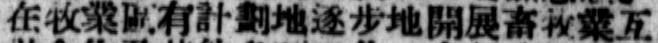在牧業區有計劃地逐步地開展畜牧業互
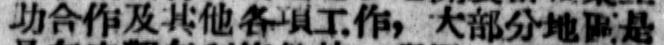助合作及其他各項工作，大部份地區是
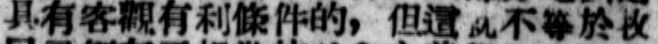具有客觀有利條件的，但這就不等於牧
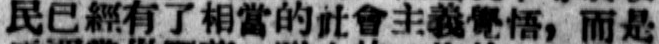民已經有了相當的社會主義覺悟，而是
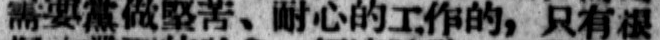需要黨做堅苦、耐心的工作的，只有根
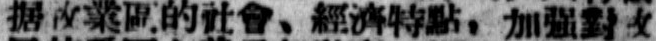據牧業區的社會、經濟特點，加強對牧
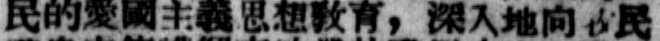民的愛國主義思想敎育，深入地向牧民
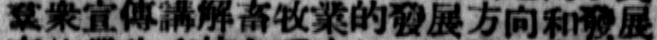羣衆宣傳講解畜牧業的發展方向和發展
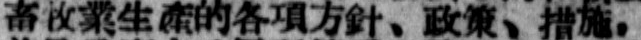畜牧業生產的各項方針、政策、措施。
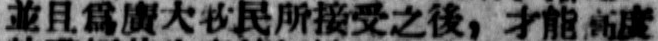並且爲廣大牧民所接收之後，才能高度
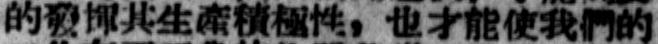的發揮其生產積極性，也才能使我們的
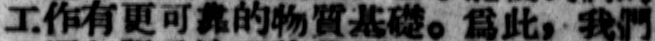工作有更可靠的物質基礎。爲此，我們
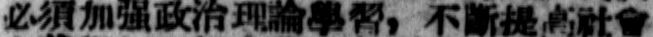必須加強政治理論學習，不斷提高社會
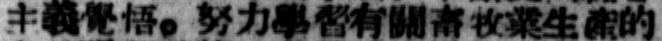主義覺悟。努力學習有關畜牧業生產的
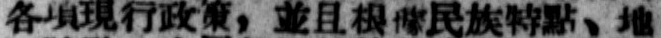各項現行政策，並且根據民族特點、地
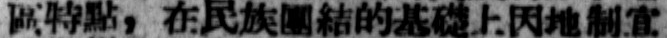區特點，在民族團結的基礎上因地制宜
